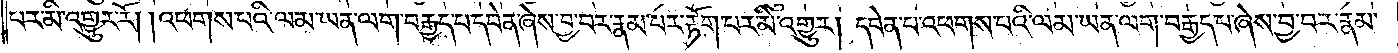པར་མི་འགྱུར་རོ། །འཕགས་པའི་ལམ་ཡན་ལག་བརྒྱད་པ་དབེན་ཞེས་བྱ་བར་རྣམ་པར་རྟོག་པར་མི་འགྱུར། དབེན་པ་འཕགས་པའི་ལམ་ཡན་ལག་བརྒྱད་པ་ཞེས་བྱ་བར་རྣམ་
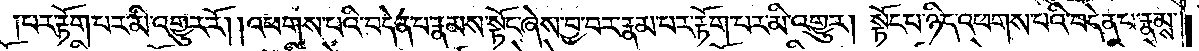པར་རྟོག་པར་མི་འགྱུར་རོ། །འཕགས་པའི་བདེན་པ་རྣམས་སྟོང་ཞེས་བྱ་བར་རྣམ་པར་རྟོག་པར་མི་འགྱུར། སྟོང་པ་ཉིད་འཕགས་པའི་བདེན་པ་རྣམས་
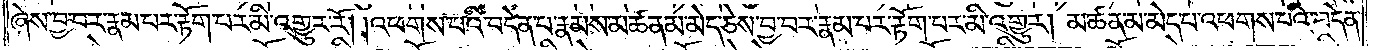ཞེས་བྱ་བར་རྣམ་པར་རྟོག་པར་མི་འགྱུར་རོ། །འཕགས་པའི་བདེན་པ་རྣམས་མཚན་མ་མེད་ཅེས་བྱ་བར་རྣམ་པར་རྟོག་པར་མི་འགྱུར། མཚན་མ་མེད་པ་འཕགས་པའི་བདེན་
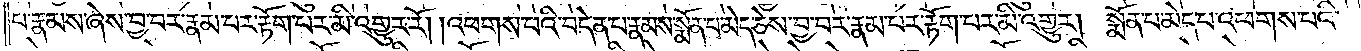པ་རྣམས་ཞེས་བྱ་བར་རྣམ་པར་རྟོག་པར་མི་འགྱུར་རོ། །འཕགས་པའི་བདེན་པ་རྣམས་སྨོན་པ་མེད་ཅེས་བྱ་བར་རྣམ་པར་རྟོག་པར་མི་འགྱུར། སྨོན་པ་མེད་པ་འཕགས་པའི་
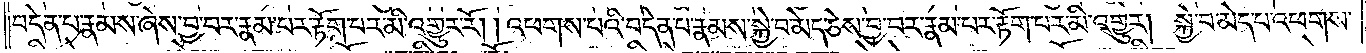བདེན་པ་རྣམས་ཞེས་བྱ་བར་རྣམ་པར་རྟོག་པར་མི་འགྱུར་རོ། །འཕགས་པའི་བདེན་པ་རྣམས་སྐྱེ་བ་མེད་ཅེས་བྱ་བར་རྣམ་པར་རྟོག་པར་མི་འགྱུར། སྐྱེ་བ་མེད་པ་འཕགས་
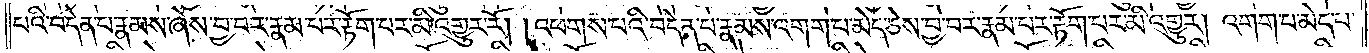པའི་བདེན་པ་རྣམས་ཞེས་བྱ་བར་རྣམ་པར་རྟོག་པར་མི་འགྱུར་རོ། །འཕགས་པའི་བདེན་པ་རྣམས་འགག་པ་མེད་ཅེས་བྱ་བར་རྣམ་པར་རྟོག་པར་མི་འགྱུར། འགག་པ་མེད་པ་
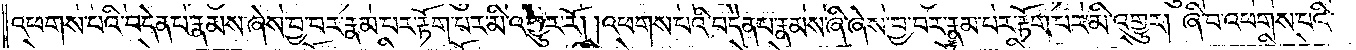འཕགས་པའི་བདེན་པ་རྣམས་ཞེས་བྱ་བར་རྣམ་པར་རྟོག་པར་མི་འགྱུར་རོ། །འཕགས་པའི་བདེན་པ་རྣམས་ཞི་ཞེས་བྱ་བར་རྣམ་པར་རྟོག་པར་མི་འགྱུར། ཞི་བ་འཕགས་པའི་
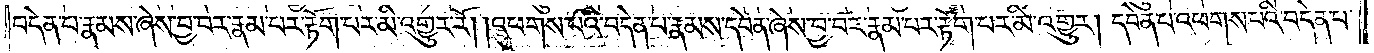བདེན་པ་རྣམས་ཞེས་བྱ་བར་རྣམ་པར་རྟོག་པར་མི་འགྱུར་རོ། །འཕགས་པའི་བདེན་པ་རྣམས་དབེན་ཞེས་བྱ་བར་རྣམ་པར་རྟོག་པར་མི་འགྱུར། དབེན་པ་འཕགས་པའི་བདེན་པ་
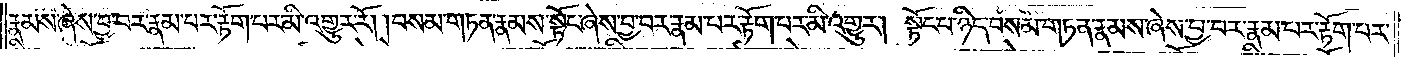རྣམས་ཞེས་བྱ་བར་རྣམ་པར་རྟོག་པར་མི་འགྱུར་རོ། །བསམ་གཏན་རྣམས་སྟོང་ཞེས་བྱ་བར་རྣམ་པར་རྟོག་པར་མི་འགྱུར། སྟོང་པ་ཉིད་བསམ་གཏན་རྣམས་ཞེས་བྱ་བར་རྣམ་པར་རྟོག་པར་
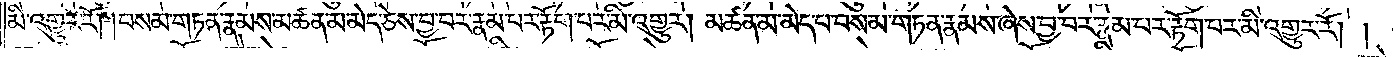མི་འགྱུར་རོ། །བསམ་གཏན་རྣམས་མཚན་མ་མེད་ཅེས་བྱ་བར་རྣམ་པར་རྟོག་པར་མི་འགྱུར། མཚན་མ་མེད་པ་བསམ་གཏན་རྣམས་ཞེས་བྱ་བར་རྣམ་པར་རྟོག་པར་མི་འགྱུར་རོ། །
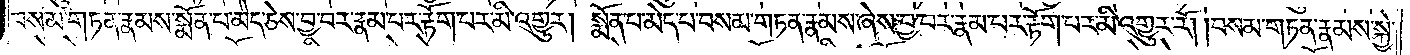བསམ་གཏན་རྣམས་སྨོན་པ་མེད་ཅེས་བྱ་བར་རྣམ་པར་རྟོག་པར་མི་འགྱུར། སྨོན་པ་མེད་པ་བསམ་གཏན་རྣམས་ཞེས་བྱ་བར་རྣམ་པར་རྟོག་པར་མི་འགྱུར་རོ། །བསམ་གཏན་རྣམས་སྐྱེ་
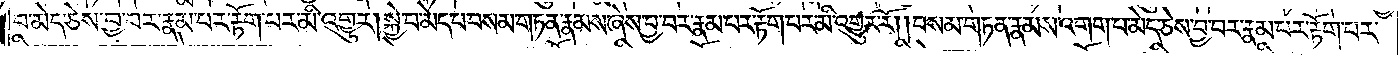བ་མེད་ཅེས་བྱ་བར་རྣམ་པར་རྟོག་པར་མི་འགྱུར། སྐྱེ་བ་མེད་པ་བསམ་གཏན་རྣམས་ཞེས་བྱ་བར་རྣམ་པར་རྟོག་པར་མི་འགྱུར་རོ། །བསམ་གཏན་རྣམས་འགག་པ་མེད་ཅེས་བྱ་བར་རྣམ་པར་རྟོག་པར་
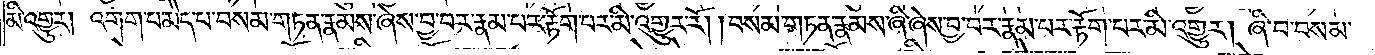མི་འགྱུར། འགག་པ་མེད་པ་བསམ་གཏན་རྣམས་ཞེས་བྱ་བར་རྣམ་པར་རྟོག་པར་མི་འགྱུར་རོ། །བསམ་གཏན་རྣམས་ཞི་ཞེས་བྱ་བར་རྣམ་པར་རྟོག་པར་མི་འགྱུར། ཞི་བ་བསམ་
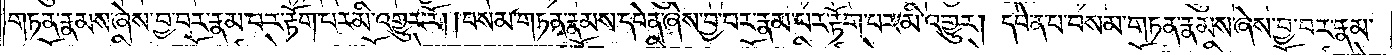གཏན་རྣམས་ཞེས་བྱ་བར་རྣམ་པར་རྟོག་པར་མི་འགྱུར་རོ། །བསམ་གཏན་རྣམས་དབེན་ཞེས་བྱ་བར་རྣམ་པར་རྟོག་པར་མི་འགྱུར། དབེན་པ་བསམ་གཏན་རྣམས་ཞེས་བྱ་བར་རྣམ་
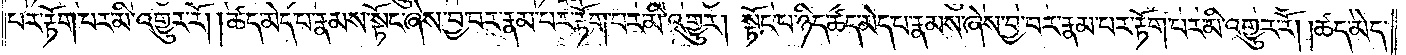པར་རྟོག་པར་མི་འགྱུར་རོ། །ཚད་མེད་པ་རྣམས་སྟོང་ཞེས་བྱ་བར་རྣམ་པར་རྟོག་པར་མི་འགྱུར། སྟོང་པ་ཉིད་ཚད་མེད་པ་རྣམས་ཞེས་བྱ་བར་རྣམ་པར་རྟོག་པར་མི་འགྱུར་རོ། །ཚད་མེད་
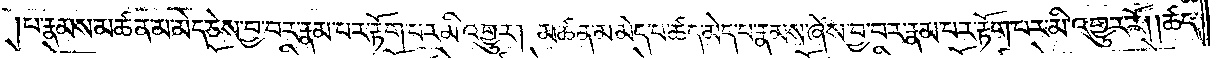པ་རྣམས་མཚན་མ་མེད་ཅེས་བྱ་བར་རྣམ་པར་རྟོག་པར་མི་འགྱུར། མཚན་མ་མེད་པ་ཚད་མེད་པ་རྣམས་ཞེས་བྱ་བར་རྣམ་པར་རྟོག་པར་མི་འགྱུར་རོ། །ཚད་
